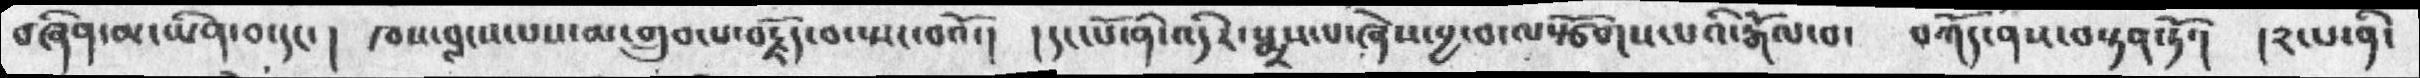བཞིན་མ་ཡིན་བ་དང་།  ཁས་བླངས་པས་མ་གྲུབ་པ་བརྗོད་བ་སྤང་བའོ་།  །དང་པོ་ནི་འདིར་སྨྲས་པ་ཞེས་བྱ་བ་ལསྩོགས་པའི་རྒོལ་བ་   བཀོད་ནས་བསྟན་ཏོ་།  །༢་པ་ནི་
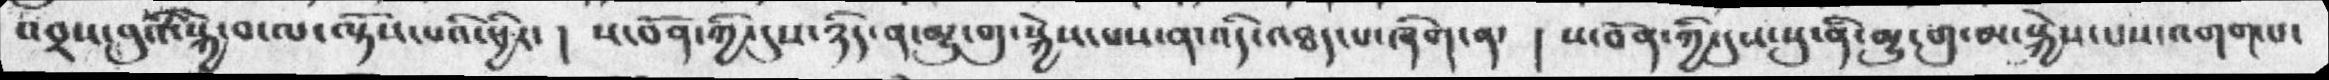འབྲས་བུའི་སྐྱེ་བ་ལ་ལྟོས་པའི་ཕྱིར་། ས་བོན་ཀྱི་དུས་ཉིད་ན་མྱུ་གུ་སྐྱེས་པས་ན་འདི་འཐད་པ་ཞིག་ན་ ། ས་བོན་ཀྱི་དུས་སུ་ནི་མྱུ་གུ་མ་སྐྱེས་པས་འགག་པ་
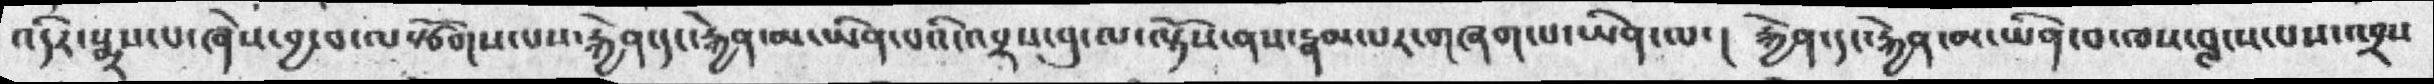འདིར་སྨྲས་པ་ཞེས་བྱ་བ་ལསྩོགས་པས་རྐྱེན་དང་རྐྱེན་མ་ཡིན་པའི་འབྲས་བུ་ལ་ལྟོས་ནས་རྣམ་པར་གཞག་པ་ཡིན་ལ་།  རྐྱེན་དང་རྐྱེན་མ་ཡིན་བ་ཁས་བླངས་པས་འབྲས
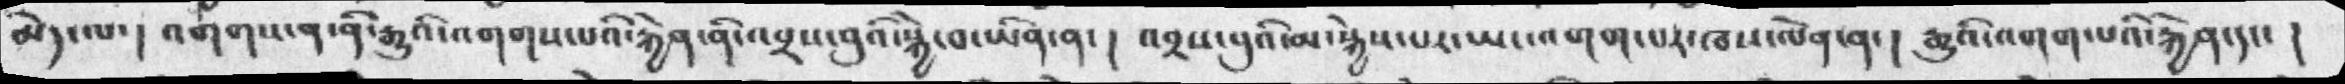མེད་ལ་། འགགས་ན་ནི་རྒྱུའི་འགགས་པའི་རྐྱེན་ནི་འབྲས་བུའི་སྐྱེ་བ་ཡིན་ན་།  འབྲས་བུའི་མ་སྐྱེས་པར་ཡང་འགག་པར་ཁས་ལེན་ན་། རྒྱུའི་འགག་པའི་རྐྱེན་དང་ །
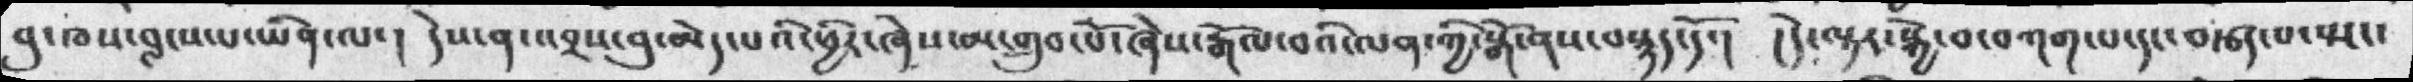བུ་ཁས་བླངས་པ་ཡིན་ལ་། དེས་ན་འབྲས་བུ་མེད་པའི་ཕྱིར་ཞེས་མ་གྲུབ་པོ་ཞེས་རྒོལ་བའི་ལན་ཀྱི་སྒོ་ནས་བསྙད་དོ་། །དེ་ལྟར་སྐྱེ་བ་བཀག་པ་དང་བརྩད་པ་སྤང་
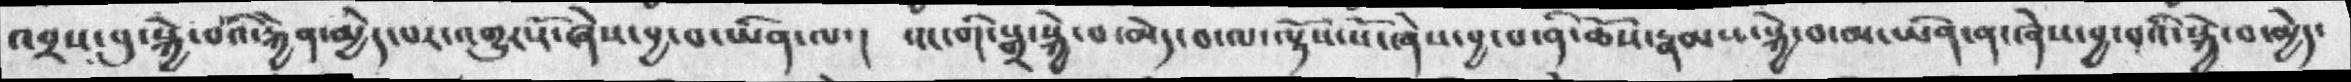འབྲས་བུ་སྐྱེ་བའི་རྐྱེན་མྱེད་པར་འགྱུར་རོ་ཞེས་བྱ་བ་ཡིན་ལ་།  འང་གི་སྒྲ་སྐྱེ་བ་མེད་བ་ལ་ལྟོས་སོ་ཞེས་བྱ་བ་ནི་ཆོས་རྣམས་སྐྱེ་བ་མ་ཡིན་ན་ཞེས་བྱ་བའི་སྐྱེ་བ་མྱེད་
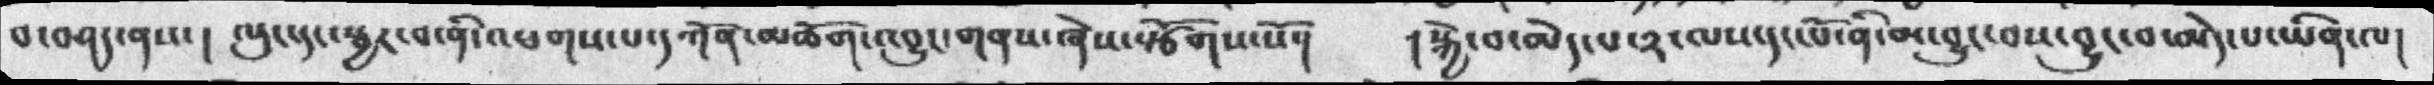བ་བཤད་ནས་།  ལུང་དང་སྦྱར་བ་ནི་འཕགས་པ་དཀོན་མཆོག་འབྱུང་གནས་ཞེས་སྩོགས་སོ་།   །སྐྱེ་བ་མེད་པ་༢་ལས་དང་པོ་ནི་མ་བྱུང་བས་བྱུང་བ་མེད་པ་ཡིན་ལ།
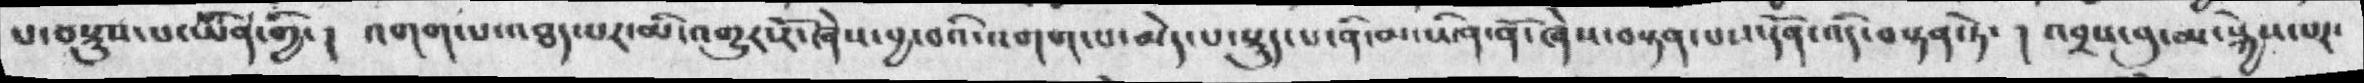པ་བསྡུས་པ་ཡིན་གྱི་།  འགག་པ་འཐད་པར་མི་འགྱུར་རོ་ཞེས་བྱ་བའི་འགག་པ་མེད་པ་སྡུས་པ་ནི་མ་ཡིན་ནོ་ཞེས་བསྟན་པས་དོན་འདི་བསྟན་ཏེ་།  འབྲས་བུ་མ་སྐྱེས་པར་
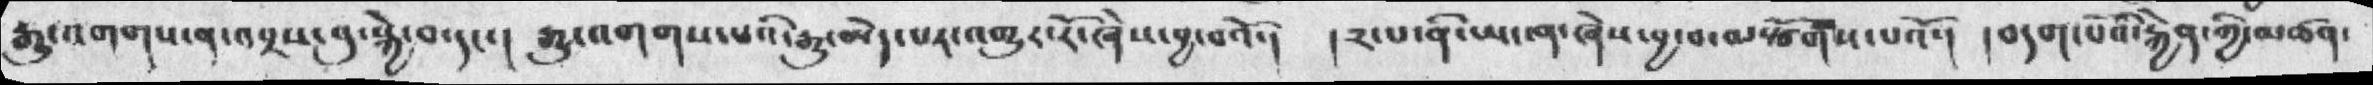རྒྱུ་འགགས་ན་འབྲས་བུ་སྐྱེ་བ་དང་།. རྒྱུ་འགགས་པའི་རྒྱུ་མེད་པར་འགྱུར་རོ་ཞེས་བྱ་བའོ་།  །༢་པ་ནི་ཡང་ན་ཞེས་བྱ་བ་ལསྩོགས་པའོ་།  །བདག་པོའི་རྐྱེན་གྱི་མཚན་
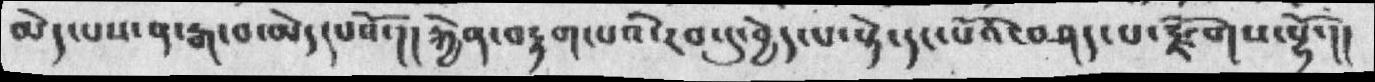མེད་པས་ན་རྒལ་བ་མེད་པའོ་།།རྐྱེན་བརྟག་པའི་རབ་དུ་བྱེད་པ་སྟེ་དང་པོའི་བཤད་པ་རྫོགས་སྷོ་།།
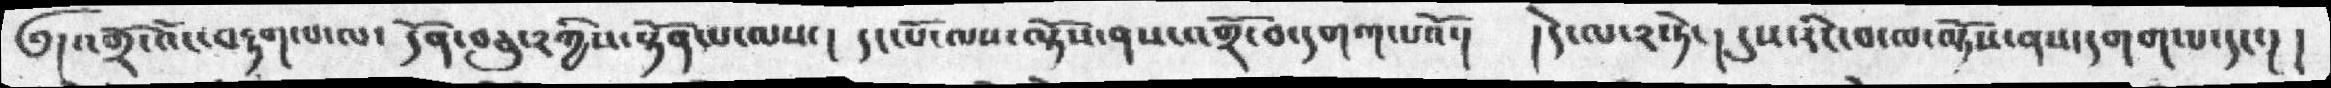༅།འགྲོ་འོང་བརྟགས་པ་ལ་ དོན་བཅུ་༢ཀྱིས་སྟོན་པ་ལས་།  དང་པོ་ལས་ལྟོས་ནས་འགྲོ་བ་དགག་པའོ་། །དེ་ལ་༢ཏེ་། དུས་རིང་བ་ལ་ལྟོས་ནས་དགག་པ་དང་། །
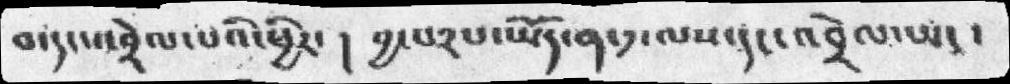བ་དང་འབྲེལ་པའི་ཕྱིར་།  བྱ་བ༢པ་ཡོད་ན་༡་ལས་དང་འབྲེལ་ཡང་
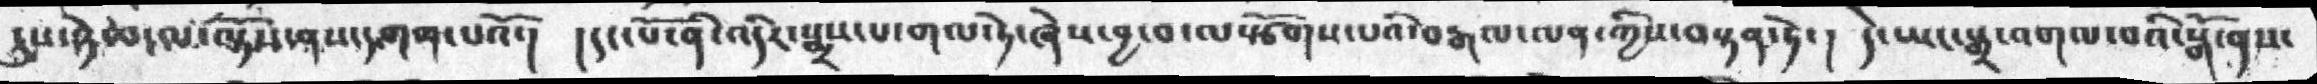དུས་ཉེ་བ་ལ་ལྟོས་ནས་དགག་པའོ་།   །དང་པོ་ནི་འདིར་སྨྲས་པ་གལ་ཏེ་ཞེས་བྱ་བ་ལསྩོགས་པའི་བརྒལ་ལན་ཀྱིས་བསྟན་ཏེ་། དེ་ཡང་སྒྲ་འགལ་བའི་སྒོ་ནས་
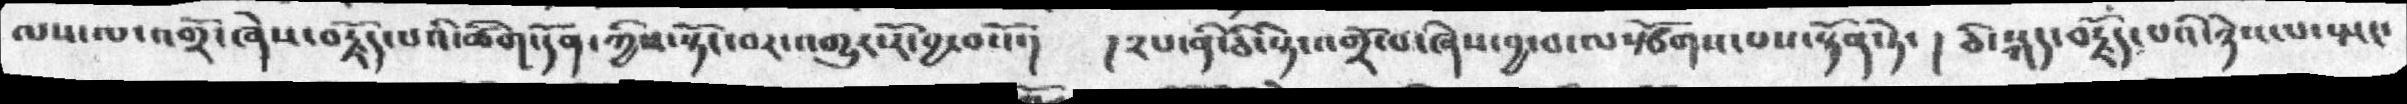ལས་ལ་འགྲོ་བ་ཞེས་བརྗོད་པའི་ཚིག་དོན་ཀྱིས་སྟོང་བར་འགྱུར་རོ་བྱ་བའོ་།   །༢པ་ནི་ཅི་སྟེ་འགྲོ་བ་ཞེས་བྱ་བ་ལསྩོགས་པས་སྟོན་ཏེ་།  ཅི་སྐད་བརྗོད་པའི་ཉེས་པ་སྤང་
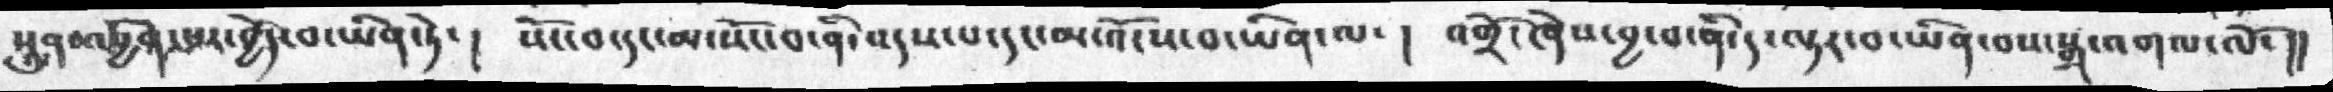སུན་འབྱིན་པར་བྱེད་བ་ཡིན་ཏེ་།  སོང་བ་དང་མ་སོང་བ་ནི་འདས་པ་དང་མ་འོངས་བ་ཡིན་ལ་།  འགྲོ་ཞེས་བྱ་བ་ནི་ད་ལྟར་བ་ཡིན་བས་སྒྲ་འགལ་ལོ་།།
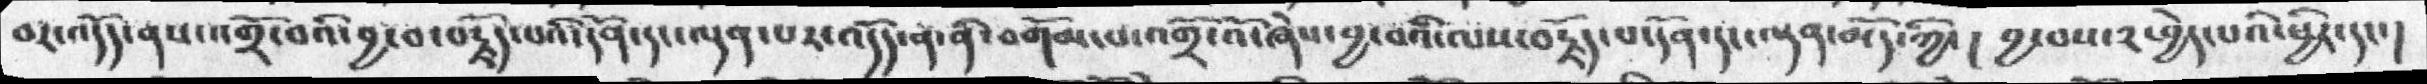བར་འདོད་ནས་འགྲོ་བའི་བྱ་བ་བརྗོད་པའི་དོན་དང་ལྡན་པར་འདོད་ན་ནི་བགོམ་པ་འགྲོ་འོ་ཞེས་བྱ་བའི་ལས་བརྗོད་པ་དོན་དང་ལྡན་མོད་ཀྱི་།  བྱ་བས་༢་བྱེད་པའི་ཕྱིར་དང་།
